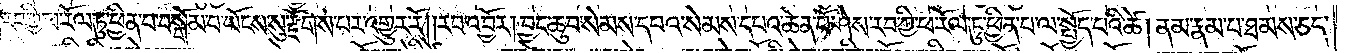རབ་ཀྱི་ཕ་རོལ་ཏུ་ཕྱིན་པ་བསྒོམ་པ་ཡོངས་སུ་རྫོགས་པར་འགྱུར་རོ། །རབ་འབྱོར། བྱང་ཆུབ་སེམས་དཔའ་སེམས་དཔའ་ཆེན་པོ་ཤེས་རབ་ཀྱི་ཕ་རོལ་ཏུ་ཕྱིན་པ་ལ་སྤྱོད་པའི་ཚེ། ནམ་རྣམ་པ་ཐམས་ཅད་
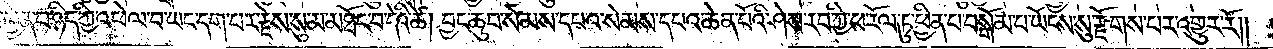མཁྱེན་པ་ཉིད་ཀྱི་འཕེལ་བ་ཡང་དག་པར་རྗེས་སུ་མ་མཐོང་བ་དེའི་ཚེ། བྱང་ཆུབ་སེམས་དཔའ་སེམས་དཔའ་ཆེན་པོའི་ཤེས་རབ་ཀྱི་ཕ་རོལ་ཏུ་ཕྱིན་པ་བསྒོམ་པ་ཡོངས་སུ་རྫོགས་པར་འགྱུར་རོ༎
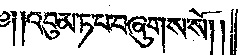༄༅། །འབུམ་ཏ་པ་བཞུགས་སོ༎
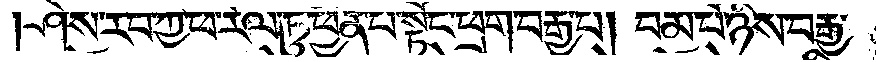ཤེས་རབ་ཀྱི་ཕ་རོལ་ཏུ་ཕྱིན་པ་སྟོང་ཕྲག་བརྒྱ་པ། །བམ་པོ་ཉིས་བརྒྱ་
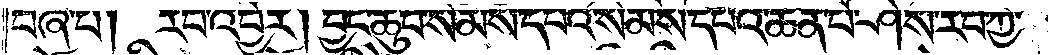བཞི་པ། །རབ་འབྱོར། བྱང་ཆུབ་སེམས་དཔའ་སེམས་དཔའ་ཆེན་པོ་ཤེས་རབ་ཀྱི་
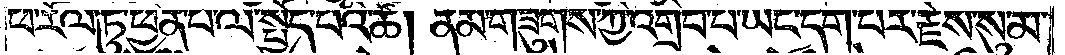ཕ་རོལ་ཏུ་ཕྱིན་པ་ལ་སྤྱོད་པའི་ཚེ། ནམ་གཟུགས་ཀྱི་འགྲིབ་པ་ཡང་དག་པར་རྗེས་སུ་མ་
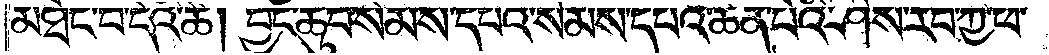མཐོང་བ་དེའི་ཚེ། བྱང་ཆུབ་སེམས་དཔའ་སེམས་དཔའ་ཆེན་པོའི་ཤེས་རབ་ཀྱི་ཕ་
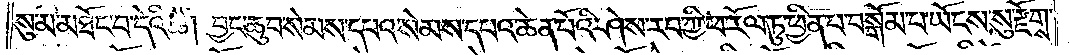སུ་མ་མཐོང་བ་དེའི་ཚེ། བྱང་ཆུབ་སེམས་དཔའ་སེམས་དཔའ་ཆེན་པོའི་ཤེས་རབ་ཀྱི་ཕ་རོལ་ཏུ་ཕྱིན་པ་བསྒོམ་པ་ཡོངས་སུ་རྫོགས་
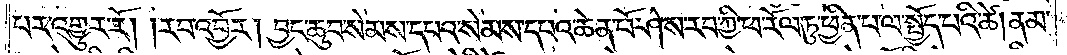པར་འགྱུར་རོ། །རབ་འབྱོར། བྱང་ཆུབ་སེམས་དཔའ་སེམས་དཔའ་ཆེན་པོ་ཤེས་རབ་ཀྱི་ཕ་རོལ་ཏུ་ཕྱིན་པ་ལ་སྤྱོད་པའི་ཚེ། ནམ་
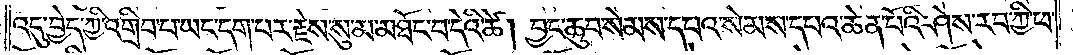འདུ་བྱེད་ཀྱི་འགྲིབ་པ་ཡང་དག་པར་རྗེས་སུ་མ་མཐོང་བ་དེའི་ཚེ། བྱང་ཆུབ་སེམས་དཔའ་སེམས་དཔའ་ཆེན་པོའི་ཤེས་རབ་ཀྱི་ཕ་
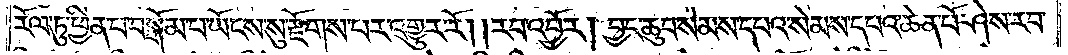རོལ་ཏུ་ཕྱིན་པ་བསྒོམ་པ་ཡོངས་སུ་རྫོགས་པར་འགྱུར་རོ། །རབ་འབྱོར། བྱང་ཆུབ་སེམས་དཔའ་སེམས་དཔའ་ཆེན་པོ་ཤེས་རབ་
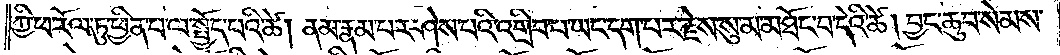ཀྱི་ཕ་རོལ་ཏུ་ཕྱིན་པ་ལ་སྤྱོད་པའི་ཚེ། ནམ་རྣམ་པར་ཤེས་པའི་འགྲིབ་པ་ཡང་དག་པར་རྗེས་སུ་མ་མཐོང་བ་དེའི་ཚེ། བྱང་ཆུབ་སེམས་
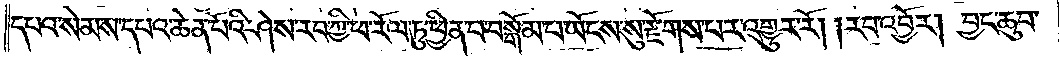དཔའ་སེམས་དཔའ་ཆེན་པོའི་ཤེས་རབ་ཀྱི་ཕ་རོལ་ཏུ་ཕྱིན་པ་བསྒོམ་པ་ཡོངས་སུ་རྫོགས་པར་འགྱུར་རོ། །རབ་འབྱོར། བྱང་ཆུབ་
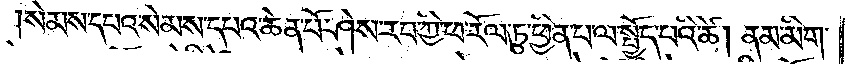སེམས་དཔའ་སེམས་དཔའ་ཆེན་པོ་ཤེས་རབ་ཀྱི་ཕ་རོལ་ཏུ་ཕྱིན་པ་ལ་སྤྱོད་པའི་ཚེ། །ནམ་མིག་
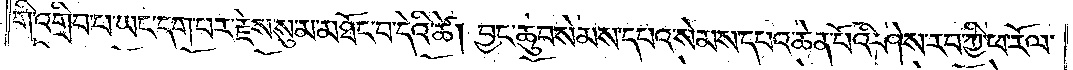གི་འགྲིབ་པ་ཡང་དག་པར་རྗེས་སུ་མ་མཐོང་བ་དེའི་ཚེ། བྱང་ཆུབ་སེམས་དཔའ་སེམས་དཔའ་ཆེན་པོའི་ཤེས་རབ་ཀྱི་ཕ་རོལ་
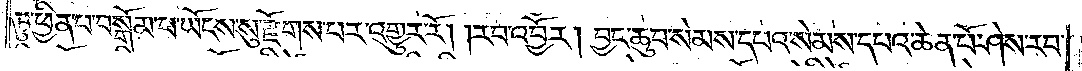ཏུ་ཕྱིན་པ་བསྒོམ་པ་ཡོངས་སུ་རྫོགས་པར་འགྱུར་རོ། །རབ་འབྱོར། བྱང་ཆུབ་སེམས་དཔའ་སེམས་དཔའ་ཆེན་པོ་ཤེས་རབ་
